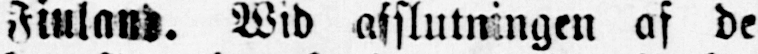Finland. Wid afslutningen af de
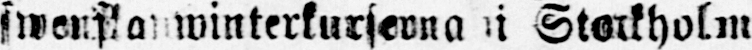swenska winterkurserna i Stockholm
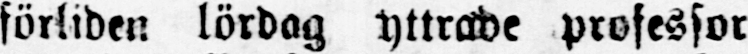förliden lördag yttrade professor
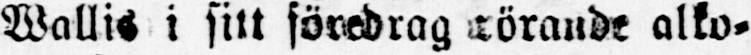Wallis i sitt föredrag rörande alko-
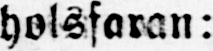holsfaran:
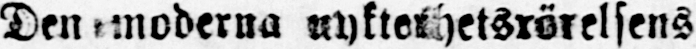Den moderna nykterhetsrörelsens
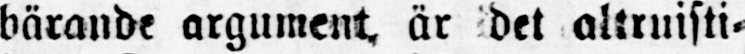bärande argument är det altruisti-
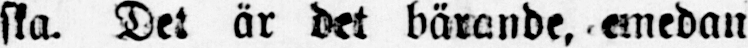ska. Det är det bärande, emedan
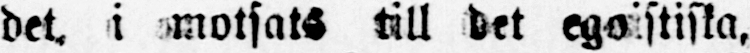det, i motsats till det egoistiska,
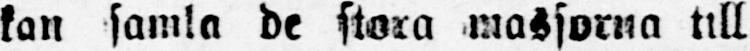kan samla de stora massorna till
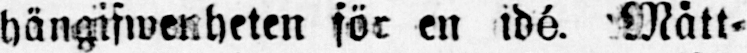hängifwenheten för en idé. Mått-
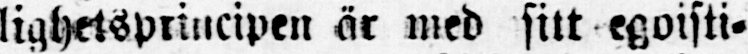lighetsprincipen är med sitt egoisti-
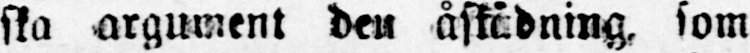ska argument den åskådning, som
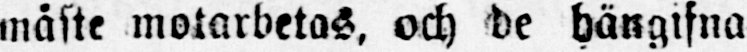måste motarbetas, och de hängifna
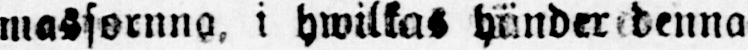massornna, i hwilkas händer denna
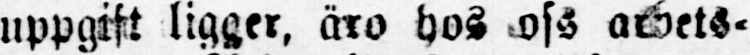uppgift ligger, äro hos oss arbets-
